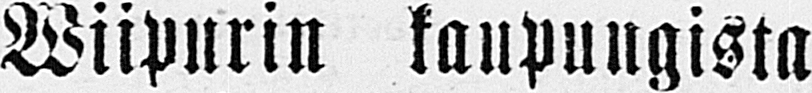Wiipurin kaupungista
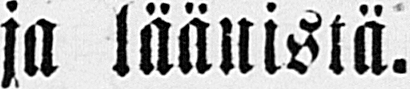ja läänistä.
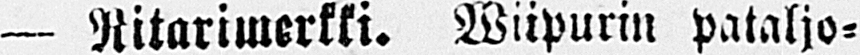— Ritarimerkki. Wiipurin pataljo-
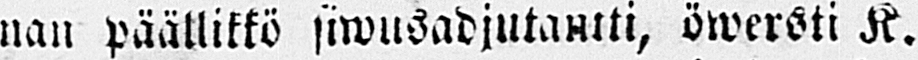nan päällikkö siwusadjutantti, öwersti K.
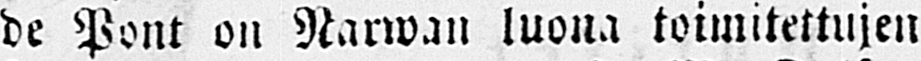de Pont on Narwan luona toimitettujen
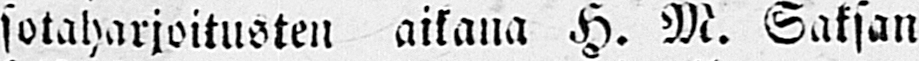sotaharjoitusten aikana H. M. Saksan
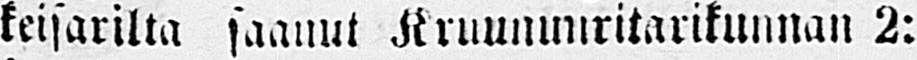keisarilta saanut Kruununritarikunnan 2:
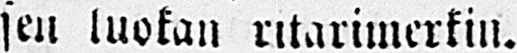sen luokan ritarimerkin.
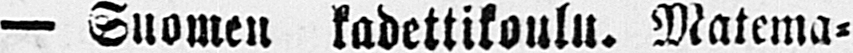— Suomen kadettikoulu. Matema-
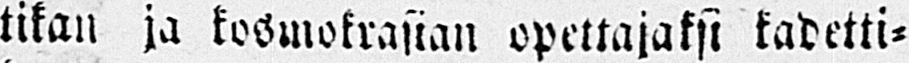tikan ja kosmokrasian opettajaksi kadetti-
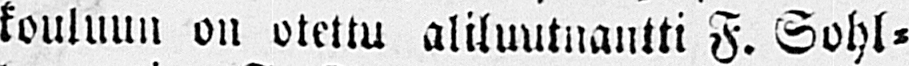kouluun on otettu aliluutnantti F. Sohl-
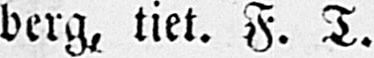berg, tiet. F. T.
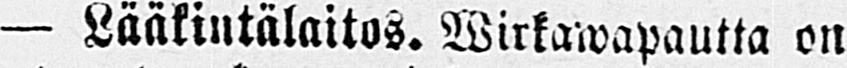— Lääkintälaitos. Wirkawapautta on
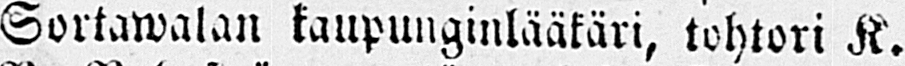Sortawalan kaupunginlääkäri, tohtori K.
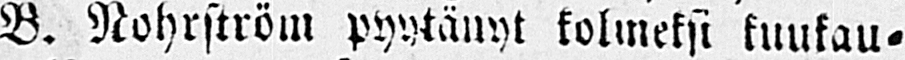B. Nohrström pyytänyt kolmeksi kuukau-
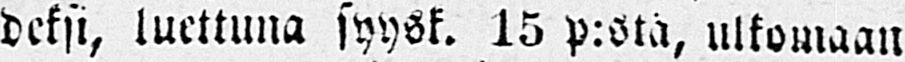deksi, luettuna syysk. 15 p:stä, ulkomaan
